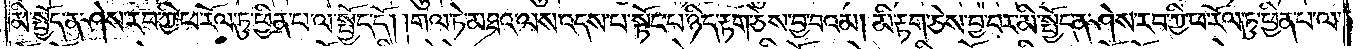མི་སྤྱོད་ན་ཤེས་རབ་ཀྱི་ཕ་རོལ་ཏུ་ཕྱིན་པ་ལ་སྤྱོད་དོ། །གལ་ཏེ་མཐའ་ལས་འདས་པ་སྟོང་པ་ཉིད་རྟག་ཅེས་བྱ་བའམ། མི་རྟག་ཅེས་བྱ་བར་མི་སྤྱོད་ན་ཤེས་རབ་ཀྱི་ཕ་རོལ་ཏུ་ཕྱིན་པ་ལ་
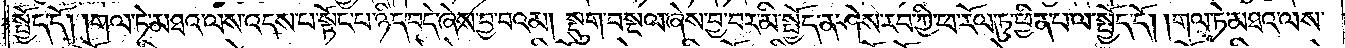སྤྱོད་དོ། །གལ་ཏེ་མཐའ་ལས་འདས་པ་སྟོང་པ་ཉིད་བདེ་ཞེས་བྱ་བའམ། སྡུག་བསྔལ་ཞེས་བྱ་བར་མི་སྤྱོད་ན་ཤེས་རབ་ཀྱི་ཕ་རོལ་ཏུ་ཕྱིན་པ་ལ་སྤྱོད་དོ། །གལ་ཏེ་མཐའ་ལས་
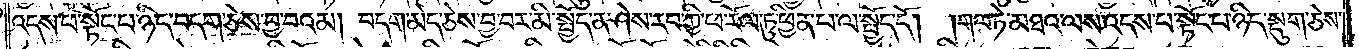འདས་པ་སྟོང་པ་ཉིད་བདག་ཅེས་བྱ་བའམ། བདག་མེད་ཅེས་བྱ་བར་མི་སྤྱོད་ན་ཤེས་རབ་ཀྱི་ཕ་རོལ་ཏུ་ཕྱིན་པ་ལ་སྤྱོད་དོ། །གལ་ཏེ་མཐའ་ལས་འདས་པ་སྟོང་པ་ཉིད་སྡུག་ཅེས་
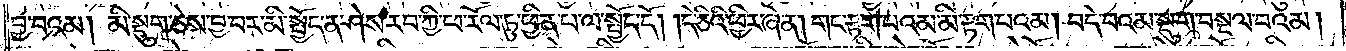བྱ་བའམ། མི་སྡུག་ཅེས་བྱ་བར་མི་སྤྱོད་ན་ཤེས་རབ་ཀྱི་ཕ་རོལ་ཏུ་ཕྱིན་པ་ལ་སྤྱོད་དོ། །དེ་ཅིའི་ཕྱིར་ཞེ་ན། གང་རྟག་པའམ་མི་རྟག་པའམ། བདེ་བའམ་སྡུག་བསྔལ་བའམ།
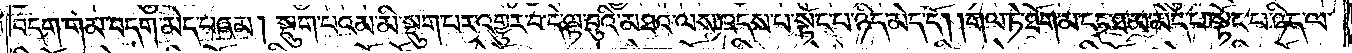བདག་གམ་བདག་མེད་པའམ། སྡུག་པའམ་མི་སྡུག་པར་འགྱུར་བ་དེ་ལྟ་བུའི་མཐའ་ལས་འདས་པ་སྟོང་པ་ཉིད་མེད་དོ། །གལ་ཏེ་ཐོག་མ་དང་ཐ་མ་མེད་པ་སྟོང་པ་ཉིད་ལ་
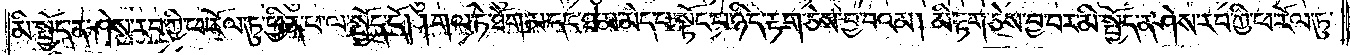མི་སྤྱོད་ན་ཤེས་རབ་ཀྱི་ཕ་རོལ་ཏུ་ཕྱིན་པ་ལ་སྤྱོད་དོ། །གལ་ཏེ་ཐོག་མ་དང་ཐ་མ་མེད་པ་སྟོང་པ་ཉིད་རྟག་ཅེས་བྱ་བའམ། མི་རྟག་ཅེས་བྱ་བར་མི་སྤྱོད་ན་ཤེས་རབ་ཀྱི་ཕ་རོལ་ཏུ་
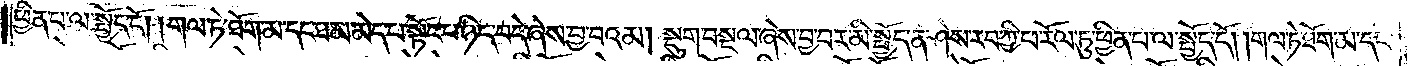ཕྱིན་པ་ལ་སྤྱོད་དོ། །གལ་ཏེ་ཐོག་མ་དང་ཐ་མ་མེད་པ་སྟོང་པ་ཉིད་བདེ་ཞེས་བྱ་བའམ། སྡུག་བསྔལ་ཞེས་བྱ་བར་མི་སྤྱོད་ན་ཤེས་རབ་ཀྱི་ཕ་རོལ་ཏུ་ཕྱིན་པ་ལ་སྤྱོད་དོ། །གལ་ཏེ་ཐོག་མ་དང་
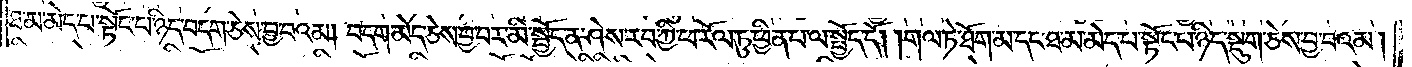ཐ་མ་མེད་པ་སྟོང་པ་ཉིད་བདག་ཅེས་བྱ་བའམ། བདག་མེད་ཅེས་བྱ་བར་མི་སྤྱོད་ན་ཤེས་རབ་ཀྱི་ཕ་རོལ་ཏུ་ཕྱིན་པ་ལ་སྤྱོད་དོ། །གལ་ཏེ་ཐོག་མ་དང་ཐ་མ་མེད་པ་སྟོང་པ་ཉིད་སྡུག་ཅེས་བྱ་བའམ།
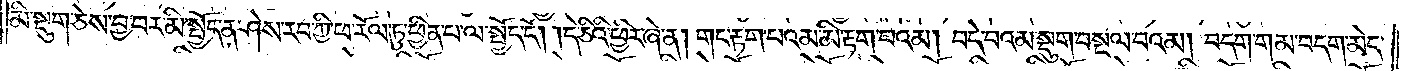མི་སྡུག་ཅེས་བྱ་བར་མི་སྤྱོད་ན་ཤེས་རབ་ཀྱི་ཕ་རོལ་ཏུ་ཕྱིན་པ་ལ་སྤྱོད་དོ། །དེ་ཅིའི་ཕྱིར་ཞེ་ན། གང་རྟག་པའམ་མི་རྟག་པའམ། བདེ་བའམ་སྡུག་བསྔལ་བའམ། བདག་གམ་བདག་མེད་
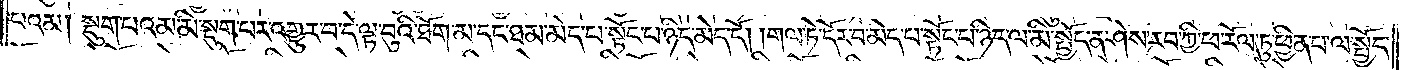པའམ། སྡུག་པའམ་མི་སྡུག་པར་འགྱུར་བ་དེ་ལྟ་བུའི་ཐོག་མ་དང་ཐ་མ་མེད་པ་སྟོང་པ་ཉིད་མེད་དོ། །གལ་ཏེ་དོར་བ་མེད་པ་སྟོང་པ་ཉིད་ལ་མི་སྤྱོད་ན་ཤེས་རབ་ཀྱི་ཕ་རོལ་ཏུ་ཕྱིན་པ་ལ་སྤྱོད་
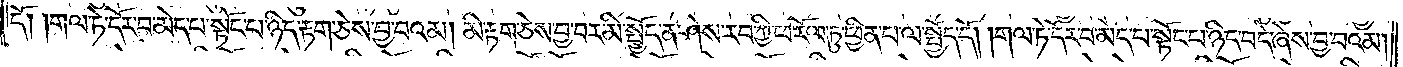དོ། །གལ་ཏེ་དོར་བ་མེད་པ་སྟོང་པ་ཉིད་རྟག་ཅེས་བྱ་བའམ། མི་རྟག་ཅེས་བྱ་བར་མི་སྤྱོད་ན་ཤེས་རབ་ཀྱི་ཕ་རོལ་ཏུ་ཕྱིན་པ་ལ་སྤྱོད་དོ། །གལ་ཏེ་དོར་བ་མེད་པ་སྟོང་པ་ཉིད་བདེ་ཞེས་བྱ་བའམ།
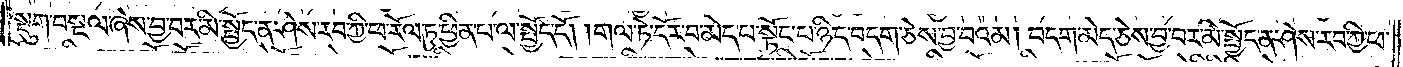སྡུག་བསྔལ་ཞེས་བྱ་བར་མི་སྤྱོད་ན་ཤེས་རབ་ཀྱི་ཕ་རོལ་ཏུ་ཕྱིན་པ་ལ་སྤྱོད་དོ། །གལ་ཏེ་དོར་བ་མེད་པ་སྟོང་པ་ཉིད་བདག་ཅེས་བྱ་བའམ། བདག་མེད་ཅེས་བྱ་བར་མི་སྤྱོད་ན་ཤེས་རབ་ཀྱི་ཕ་
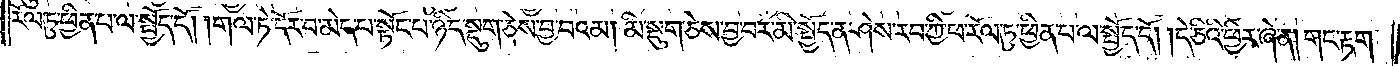རོལ་ཏུ་ཕྱིན་པ་ལ་སྤྱོད་དོ། །གལ་ཏེ་དོར་བ་མེད་པ་སྟོང་པ་ཉིད་སྡུག་ཅེས་བྱ་བའམ། མི་སྡུག་ཅེས་བྱ་བར་མི་སྤྱོད་ན་ཤེས་རབ་ཀྱི་ཕ་རོལ་ཏུ་ཕྱིན་པ་ལ་སྤྱོད་དོ། །དེ་ཅིའི་ཕྱིར་ཞེ་ན། གང་རྟག་
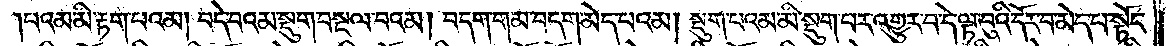པའམ་མི་རྟག་པའམ། བདེ་བའམ་སྡུག་བསྔལ་བའམ། བདག་གམ་བདག་མེད་པའམ། སྡུག་པའམ་མི་སྡུག་པར་འགྱུར་བ་དེ་ལྟ་བུའི་དོར་བ་མེད་པ་སྟོང་
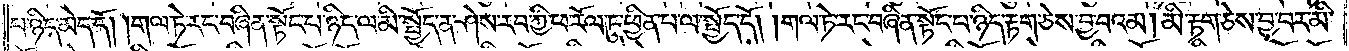པ་ཉིད་མེད་དོ། །གལ་ཏེ་རང་བཞིན་སྟོང་པ་ཉིད་ལ་མི་སྤྱོད་ན་ཤེས་རབ་ཀྱི་ཕ་རོལ་ཏུ་ཕྱིན་པ་ལ་སྤྱོད་དོ། །གལ་ཏེ་རང་བཞིན་སྟོང་པ་ཉིད་རྟག་ཅེས་བྱ་བའམ། མི་རྟག་ཅེས་བྱ་བར་མི་
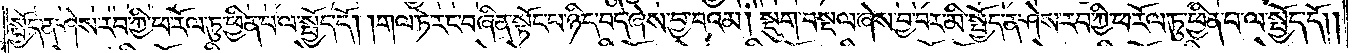སྤྱོད་ན་ཤེས་རབ་ཀྱི་ཕ་རོལ་ཏུ་ཕྱིན་པ་ལ་སྤྱོད་དོ། །གལ་ཏེ་རང་བཞིན་སྟོང་པ་ཉིད་བདེ་ཞེས་བྱ་བའམ། སྡུག་བསྔལ་ཞེས་བྱ་བར་མི་སྤྱོད་ན་ཤེས་རབ་ཀྱི་ཕ་རོལ་ཏུ་ཕྱིན་པ་ལ་སྤྱོད་དོ། །
